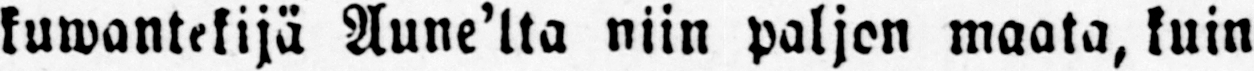kuwantekijä Aune’lta niin paljon maata, kuin
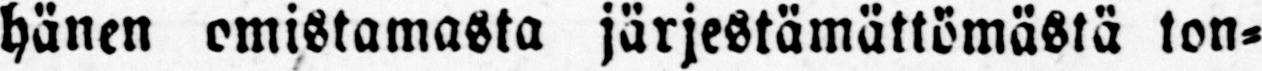hänen omistamasta järjestämättömästä ton-
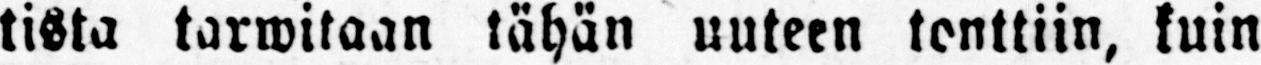tista tarwitaan tähän uuteen tonttiin, kuin
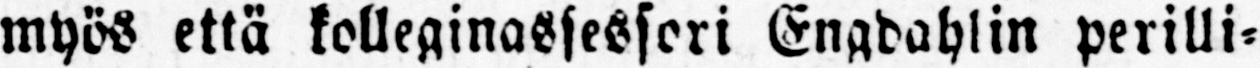myös että kolleginassessori Engdahlin perilli-
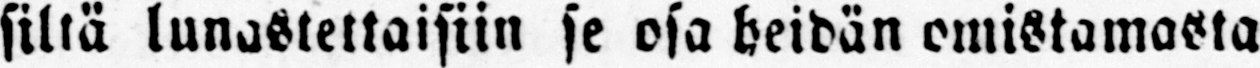siltä lunastettaisiin se osa heidän omistamasta
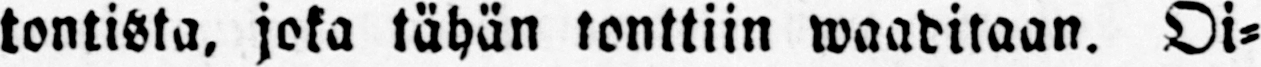tontista, joka tähän tonttiin waaditaan. Oi-
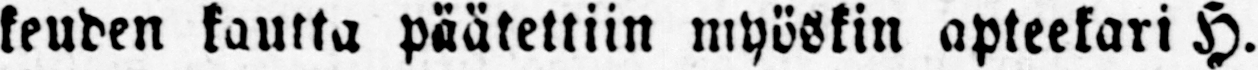keuden kautta päätettiin myöskin apteekari H.
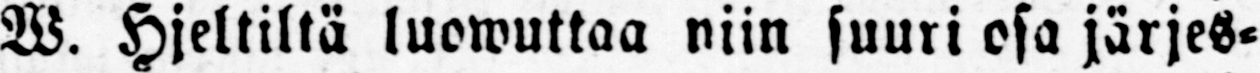W. Hjeltiltä luowuttaa niin suuri osa järjes-
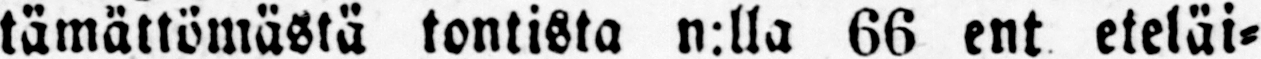tämättömästä tontista n:lla 66 ent eteläi-
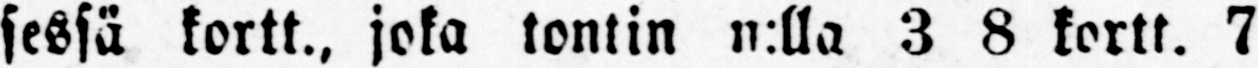sessä kortt., joka tontin n:lla 3 8 kortt. 7
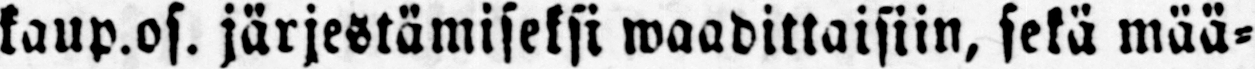kaup.os. järjestämiseksi waadittaisiin, sekä mää-
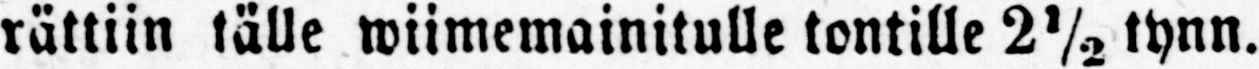rättiin tälle wiimemainitulle tontille 2½.- tynn.
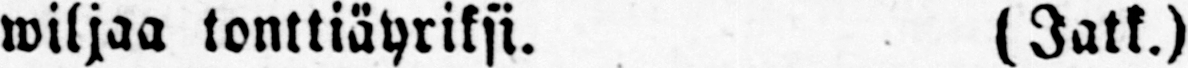wiljaa tonttiäyriksi. (Jatk.)
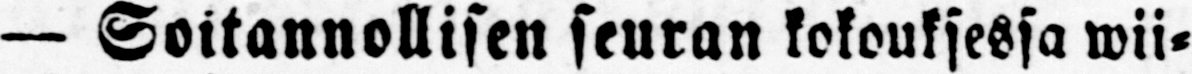— Soitannollisen seuran kokouksessa wii-
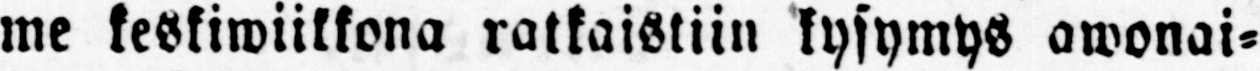me keskiwiikkona ratkaistiin kysymys awonai-
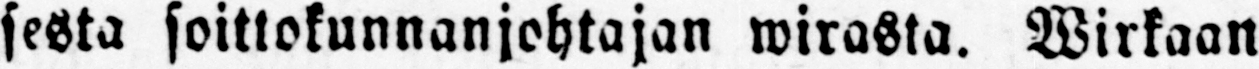sesta soittokunnanjohtajan wirasta. Wirkaan
